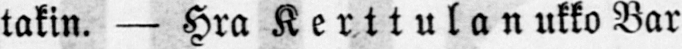takin. — Hra Kerttulan ukko Bar-
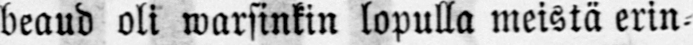beaud oli warsinkin lopulla meistä erin-
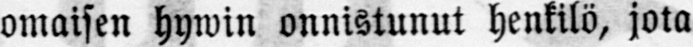omaisen hywin onnistunut henkilö, jota
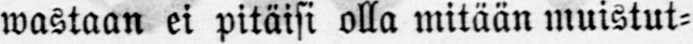wastaan ei pitäisi olla mitään muistut-
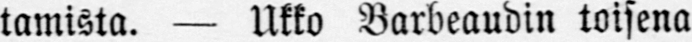tamista. — Ukko Barbeaudin toisena
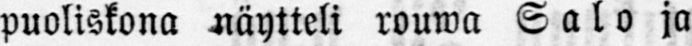puoliskona näytteli rouwa Salo ja
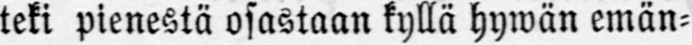teki pienestä osastaan kyllä hywän emän-
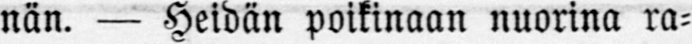nän. — Heidän poikinaan nuorina ra-
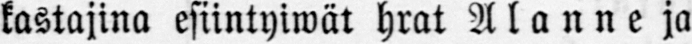kastajina esiintyiwät hrat Alanne ja
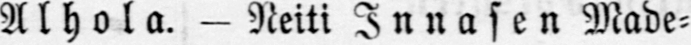Alhola. — Neiti Innasen Made-
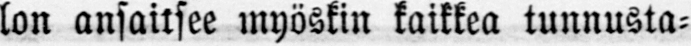lon ansaitsee myöskin kaikkea tunnusta-
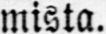mista.
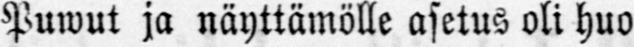Puwut ja näyttämölle asetus oli huo-
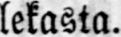lekasta.
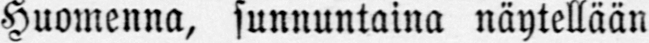Huomenna, sunnuntaina näytellään
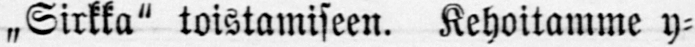„Sirkka" toistamiseen. Kehottamme y-
